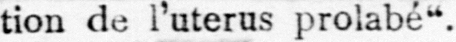tion de l'uterus proladé".
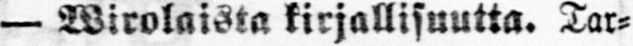— Wirolaista kirjallisuutta. Tar-
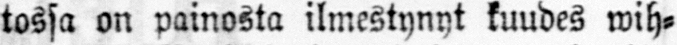tossa on painosta ilmestynyt kuudes wih-
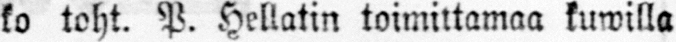ko toht. P. Hellatin toimittamaa kuwilla
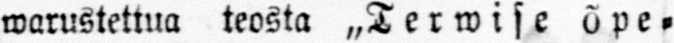warustettua teosta ˶Terwise õpe-
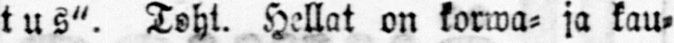tus". Toht. Hellat on korwa- ja kau-
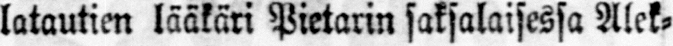latautien lääkäri Pietarin saksalaisessa Alek-
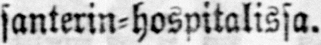santerin-hospitalissa.
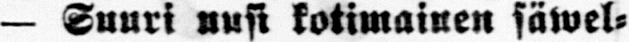— Suuri uusi kotimainen säwel-
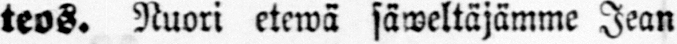teos. Nuori etewä säweltäjämme Jean
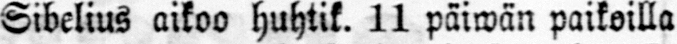Sibelius aikoo huhtik. 11 päiwän paikoilla
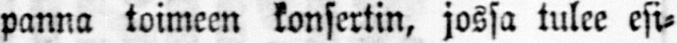panna toimeen konsertin, jossa tulee esi-
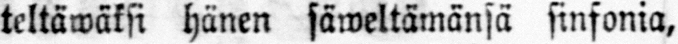teltäwäksi hänen säweltämänsä sinfonia,
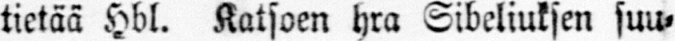tietää Hbl. Katsoen hra Sibeliuksen suu-
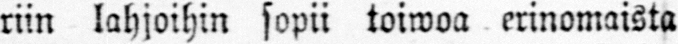riin lahjoihin sopii toiwoa erinomaista
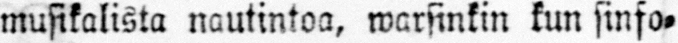musikalista nautintoa, warsinkin kun sinfo-
